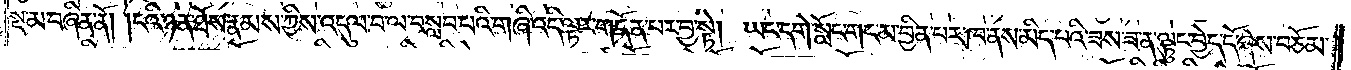སྔ་མ་བཞིན་ནོ། །ངའི་ཉན་ཐོས་རྣམས་ཀྱིས་འདུལ་བ་ལ་བསླབ་པའི་གཞི་འདི་ལྟར་གདོན་པར་བྱ་སྟེ། ཡང་དགེ་སློང་གང་མ་བྱིན་པར་ཁ་ནས་མིད་པའི་ཟས་ཟ་ན་ལྟུང་བྱེད་དོ་ཞེས་བཅོམ་
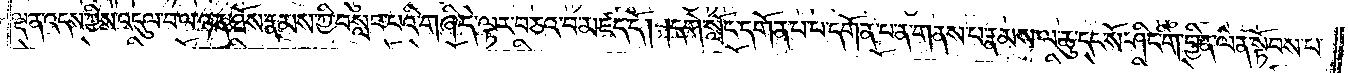ལྡན་འདས་ཀྱིས་འདུལ་བ་ལ་ཉན་ཐོས་རྣམས་ཀྱི་བསླབ་པའི་གཞི་དེ་ལྟར་བཅའ་བ་མཛད་དོ། །དགེ་སློང་དགོན་པ་པ་དགོན་པ་ན་གནས་པ་རྣམས་ལ་ཆུ་དང་སོ་ཤིང་གི་བྱིན་ལེན་སྟོབས་པ་
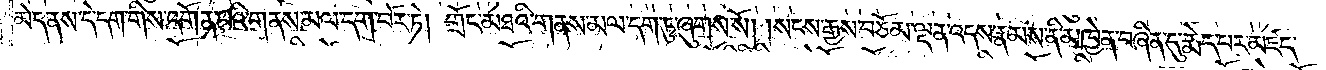མེད་ནས་དེ་དག་གིས་དགོན་པའི་གནས་མལ་དག་བོར་ཏེ། གྲོང་མཐའི་གནས་མལ་དག་ཏུ་ཞུགས་སོ། །སངས་རྒྱས་བཅོམ་ལྡན་འདས་རྣམས་ནི་མཁྱེན་བཞིན་དུ་རྨེད་པར་མཛད་
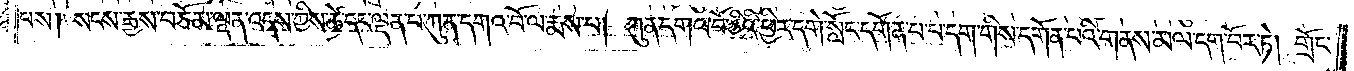པས། སངས་རྒྱས་བཅོམ་ལྡན་འདས་ཀྱིས་ཚེ་དང་ལྡན་པ་ཀུན་དགའ་བོ་ལ་རྨས་པ། ཀུན་དགའ་བོ་ཅིའི་ཕྱིར་དགེ་སློང་དགོན་པ་པ་དག་གིས་དགོན་པའི་གནས་མལ་དག་བོར་ཏེ། གྲོང་
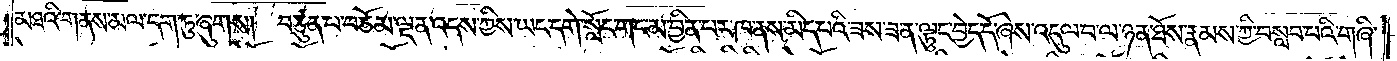མཐའི་གནས་མལ་དག་ཏུ་ཞུགས། བཙུན་པ་བཅོམ་ལྡན་འདས་ཀྱིས་ཡང་དགེ་སློང་གང་མ་བྱིན་པར་ཁ་ནས་མིད་པའི་ཟས་ཟ་ན་ལྟུང་བྱེད་དོ་ཞེས་འདུལ་བ་ལ་ཉན་ཐོས་རྣམས་ཀྱི་བསླབ་པའི་གཞི་
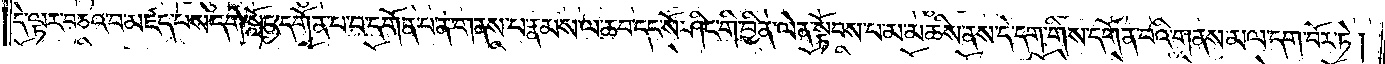དེ་ལྟར་བཅའ་བ་མཛད་པས་དགེ་སློང་དགོན་པ་པ་དགོན་པ་ན་གནས་པ་རྣམས་ལ་ཆབ་དང་སོ་ཤིང་གི་བྱིན་ལེན་སྟོབས་པ་མ་མཆིས་ནས་དེ་དག་གིས་དགོན་པའི་གནས་མལ་དག་བོར་ཏེ།
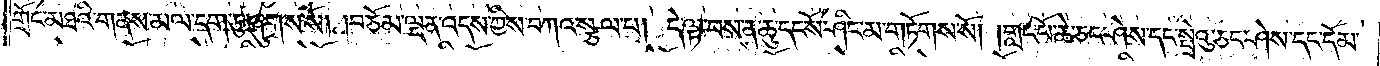གྲོང་མཐའི་གནས་མལ་དག་ཏུ་ཞུགས་སོ། །བཅོམ་ལྡན་འདས་ཀྱིས་བཀའ་སྩལ་པ། དེ་ལྟ་བས་ན་ཆུ་དང་སོ་ཤིང་མ་གཏོགས་སོ། །གླང་པོ་ཆེ་ཅང་ཤེས་དང་སྤྲེའུ་ཅང་ཤེས་དང་དོམ་
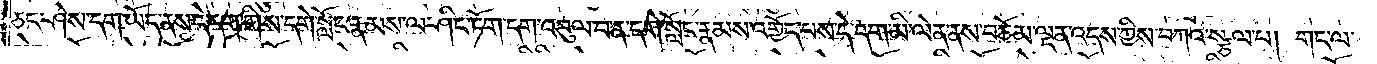ཅང་ཤེས་དག་ཡོད་ནས་དེ་དག་གིས་དགེ་སློང་རྣམས་ལ་ཤིང་ཏོག་དག་འབུལ་བ་ན་དགེ་སློང་རྣམས་འགྱོད་པས་དེ་དག་མི་ལེན་ནས་བཅོམ་ལྡན་འདས་ཀྱིས་བཀའ་སྩལ་པ། གང་ལ་
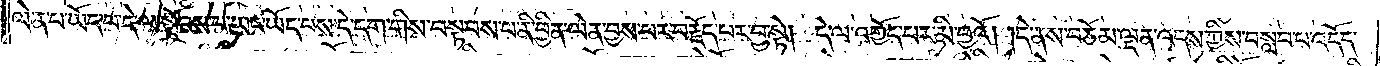ལེན་པ་ཡོད་པ་དེ་ལ་སྟོབས་པ་ཡང་ཡོད་པས་དེ་དག་གིས་བསྟབས་པ་ནི་བྱིན་ལེན་བྱས་པར་བརྗོད་པར་བྱ་སྟེ། དེ་ལ་འགྱོད་པར་མི་བྱའོ། །དེ་ནས་བཅོམ་ལྡན་འདས་ཀྱིས་བསླབ་པ་འདོད་
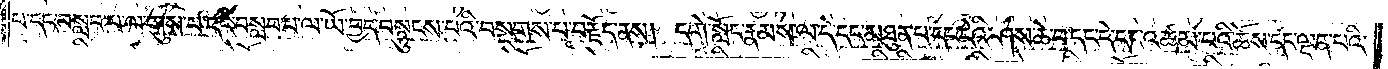པ་དང་བསླབ་པ་ལ་གུས་པ་དང་བསླབ་པ་ལ་ཡོ་བྱད་བསྙུངས་པའི་བསྔགས་པ་བརྗོད་ནས། དགེ་སློང་རྣམས་ལ་དེ་དང་མཐུན་པ་དང་དེའི་ཤས་ཆེ་བ་དང་དེ་དང་འཚམ་པའི་ཆོས་དང་ལྡན་པའི་
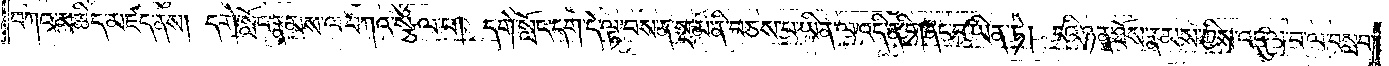བཀའ་མཆིད་མཛད་ནས། དགེ་སློང་རྣམས་ལ་བཀའ་སྩལ་པ། དགེ་སློང་དག་དེ་ལྟ་བས་ན་སྔ་མ་ནི་བཅས་པ་ཡིན་ལ་འདི་ནི་གནང་བ་ཡིན་ཏེ། ངའི་ཉན་ཐོས་རྣམས་ཀྱིས་འདུལ་བ་ལ་བསླབ་
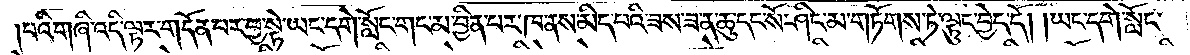པའི་གཞི་འདི་ལྟར་གདོན་པར་བྱ་སྟེ་ཡང་དགེ་སློང་གང་མ་བྱིན་པར་ཁ་ནས་མིད་པའི་ཟས་ཟ་ན་ཆུ་དང་སོ་ཤིང་མ་གཏོགས་ཏེ་ལྟུང་བྱེད་དོ། །ཡང་དགེ་སློང་
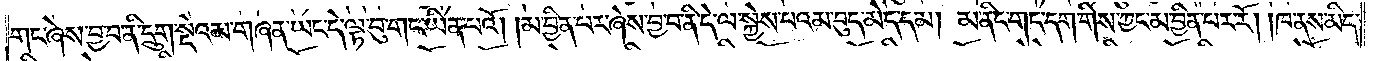གང་ཞེས་བྱ་བ་ནི་དྲུག་སྡེའམ་གཞན་ཡང་དེ་ལྟ་བུ་གང་ཡིན་པའོ། །མ་བྱིན་པར་ཞེས་བྱ་བ་ནི་དེ་ལ་སྐྱེས་པའམ་བུད་མེད་དམ། མ་ནིང་གང་དག་གིས་ཀྱང་མ་བྱིན་པར་རོ། །ཁ་ནས་མིད་
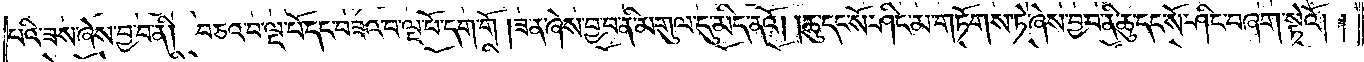པའི་ཟས་ཞེས་བྱ་བ་ནི། བཅའ་བ་ལྔ་པོ་དང་བཟའ་བ་ལྔ་པོ་དག་གོ། ཟ་ན་ཞེས་བྱ་བ་ནི་མགུལ་དུ་མིད་ནའོ། །ཆུ་དང་སོ་ཤིང་མ་གཏོགས་ཏེ་ཞེས་བྱ་བ་ནི་ཆུ་དང་སོ་ཤིང་བཞག་སྟེའོ། །
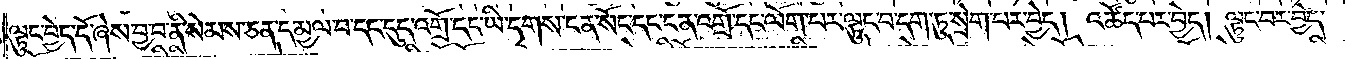ལྟུང་བྱེད་དོ་ཞེས་བྱ་བ་ནི་སེམས་ཅན་དམྱལ་བ་དང་དུད་འགྲོ་དང་ཡི་དྭགས་ངན་སོང་དང་ངན་འགྲོ་དང་ལོག་པར་ལྟུང་བ་དག་ཏུ་སྲེག་པར་བྱེད། འཚོད་པར་བྱེད། ལྟུང་བར་བྱེད་
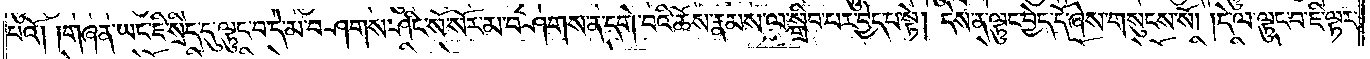པའོ། །གཞན་ཡང་ཇི་སྲིད་དུ་ལྟུང་བ་དེ་མ་བཤགས་ཤིང་སོ་སོར་མ་བཤགས་ན་དགེ་བའི་ཆོས་རྣམས་ལ་སྒྲིབ་པར་བྱེད་པ་སྟེ། དེས་ན་ལྟུང་བྱེད་དོ་ཞེས་གསུངས་སོ། །དེ་ལ་ལྟུང་བ་ཇི་ལྟར་
